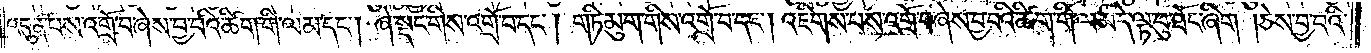འདུན་པས་འགྲོ་བ་ཞེས་བྱ་བའི་ཚིག་གི་ལམ་དང༌། ཞེ་སྡང་གིས་འགྲོ་བ་དང༌། གཏི་མུག་གིས་འགྲོ་བ་དང༌། འཇིགས་པས་འགྲོ་བ་ཞེས་བྱ་བའི་ཚིག་གི་ལམ་དེ་ལྟ་བུ་ཐོང་ཞིག །ཅེས་བྱ་བའི་
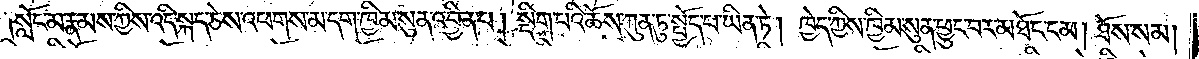སློང་མ་རྣམས་ཀྱིས་འདི་སྐད་ཅེས་འཕགས་མ་དག་ཁྱིམ་སུན་འབྱིན་པ། སྡིག་པའི་ཆོས་ཀུན་ཏུ་སྤྱོད་པ་ཡིན་ཏེ། ཁྱེད་ཀྱིས་ཁྱིམ་སུན་ཕྱུང་བར་མཐོང་ངམ། ཐོས་སམ།
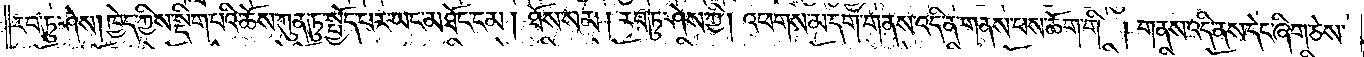རབ་ཏུ་ཤེས། ཁྱེད་ཀྱིས་སྡིག་པའི་ཆོས་ཀུན་ཏུ་སྤྱོད་པར་ཡང་མཐོང་ངམ། ཐོས་སམ། རབ་ཏུ་ཤེས་ཀྱི། འཕགས་མ་དག་གནས་འདི་ན་གནས་པས་ཆོག་གི །གནས་འདི་ནས་དེང་ཞིག་ཅེས་
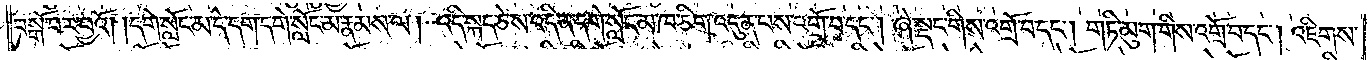བསྒོ་བར་བྱའོ། །དགེ་སློང་མ་དེ་དག་དགེ་སློང་མ་རྣམས་ལ། འདི་སྐད་ཅེས་འདི་ན་དགེ་སློང་མ་ཁ་ཅིག་འདུན་པས་འགྲོ་བ་དང༌། ཞེ་སྡང་གིས་འགྲོ་བ་དང༌། གཏི་མུག་གིས་འགྲོ་བ་དང༌། འཇིགས་
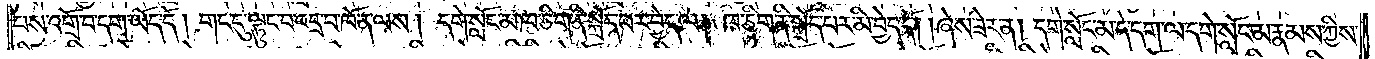པས་འགྲོ་བ་དག་ཡོད་དོ། །གང་དུ་ལྟུང་བ་འདྲ་བ་ཁོ་ན་ལས། དགེ་སློང་མ་ཁ་ཅིག་ནི་སྐྲོད་པར་བྱེད་ལ། ཁ་ཅིག་ནི་སྐྲོད་པར་མི་བྱེད་དོ། །ཞེས་ཟེར་ན། དགེ་སློང་མ་དེ་དག་ལ་དགེ་སློང་མ་རྣམས་ཀྱིས་
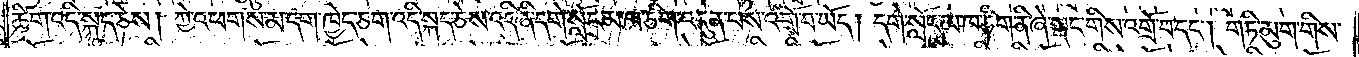ཚིག་འདི་སྐད་ཅེས། ཀྱེ་འཕགས་མ་དག་ཁྱེད་ཅག་འདི་སྐད་ཅེས་འདི་ནི་དགེ་སློང་མ་ཁ་ཅིག་འདུན་པས་འགྲོ་བ་ཡོད། དགེ་སློང་མ་ཁ་ཅིག་ནི་ཞེ་སྡང་གིས་འགྲོ་བ་དང༌། གཏི་མུག་གིས་
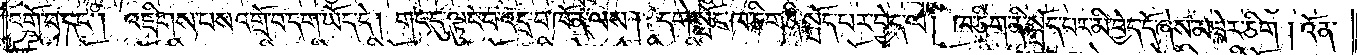འགྲོ་བ་དང༌། འཇིགས་པས་འགྲོ་བ་དག་ཡོད་དེ། གང་དུ་ལྟུང་བ་འདྲ་བ་ཁོ་ན་ལས། དགེ་སློང་ཁ་ཅིག་ནི་སྐྲོད་པར་བྱེད་ལ། ཁ་ཅིག་ནི་སྐྲོད་པར་མི་བྱེད་དོ་ཞེས་མ་ཟེར་ཅིག །འོན་
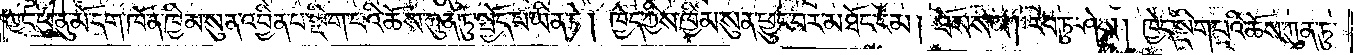ཀྱང་ཕུ་ནུ་མོ་དག་ཁོ་ན་ཁྱིམ་སུན་འབྱིན་པ་སྡིག་པའི་ཆོས་ཀུན་ཏུ་སྤྱོད་པ་ཡིན་ཏེ། ཁྱེད་ཀྱིས་ཁྱིམ་སུན་ཕྱུང་བར་མཐོང་ངམ། ཐོས་སམ། རབ་ཏུ་ཤེས། ཁྱེད་སྡིག་པའི་ཆོས་ཀུན་ཏུ་
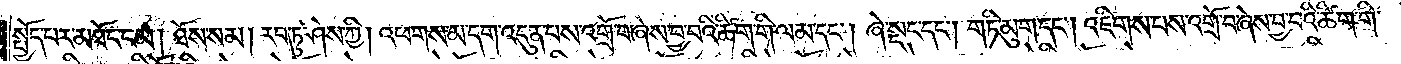སྤྱོད་པར་མཐོང་ངམ། ཐོས་སམ། རབ་ཏུ་ཤེས་ཀྱི། འཕགས་མ་དག་འདུན་པས་འགྲོ་བ་ཞེས་བྱ་བའི་ཚིག་གི་ལམ་དང༌། ཞེ་སྡང་དང༌། གཏི་མུག་དང༌། འཇིགས་པས་འགྲོ་བ་ཞེས་བྱ་བའི་ཚིག་གི་
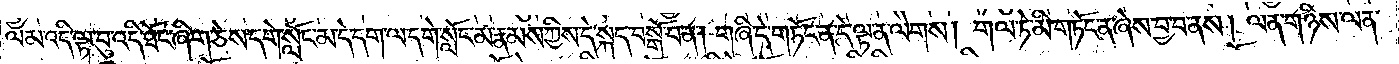ལམ་འདི་ལྟ་བུ་འདི་ཐོང་ཞིག་ཅེས་དགེ་སློང་མ་དེ་དག་ལ་དགེ་སློང་མ་རྣམས་ཀྱིས་དེ་སྐད་བསྒོ་བ་ན། གཞི་དེ་གཏོང་ན་དེ་ལྟ་ན་ལེགས། གལ་ཏེ་མི་གཏོང་ན་ཞེས་བྱ་བ་ནས། ལན་གཉིས་ལན་
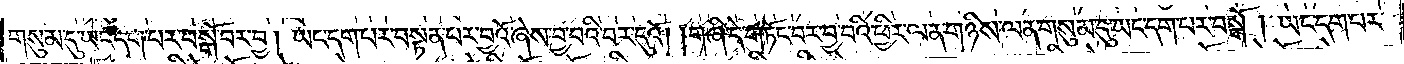གསུམ་དུ་ཡང་དག་པར་བསྒོ་བར་བྱ། ཡང་དག་པར་བསྟན་པར་བྱའོ་ཞེས་བྱ་བའི་བར་དུའོ། །གཞི་དེ་གཏོང་བར་བྱ་བའི་ཕྱིར་ལན་གཉིས་ལན་གསུམ་དུ་ཡང་དག་པར་བསྒོ། ཡང་དག་པར་
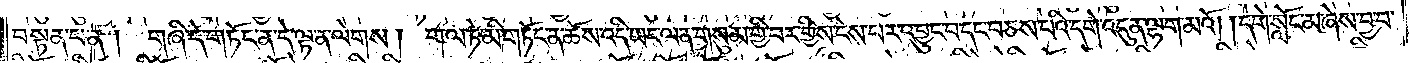བསྟན་པ་ན། གཞི་དེ་གཏོང་ན་དེ་ལྟ་ན་ལེགས། གལ་ཏེ་མི་གཏོང་ན་ཆོས་འདི་ཡང་ལན་གསུམ་གྱི་བར་གྱིས་ངེས་པར་འབྱུང་བ་དང་བཅས་པའི་དགེ་འདུན་ལྷག་མའོ། །དགེ་སློང་མ་ཞེས་བྱ་བ་
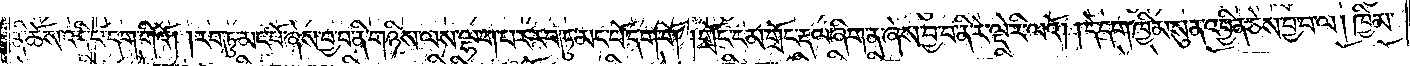ནི་ཆོས་འདི་པ་དག་གིའོ། །རབ་ཏུ་མང་པོ་ཞེས་བྱ་བ་ནི་གཉིས་ལས་ལྷག་པར་རབ་ཏུ་མང་པོ་དག་གོ །གྲོང་ངམ་གྲོང་རྡལ་ཞིག་ན་ཞེས་བྱ་བ་ནི་རེ་ལྡེ་རི་ལའོ། །དེ་དག་ཁྱིམ་སུན་འབྱིན་ཅེས་བྱ་བ་ལ། ཁྱིམ་
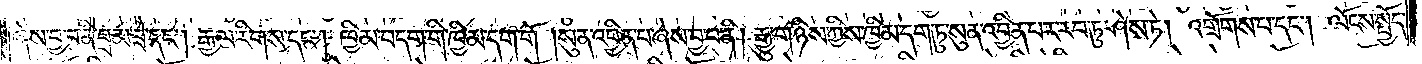ཞེས་བྱ་བ་ནི་བྲམ་ཟེ་དང༌། རྒྱལ་རིགས་དང༌། ཁྱིམ་བདག་གི་ཁྱིམ་དག་གོ །སུན་འབྱིན་པ་ཞེས་བྱ་བ་ནི། རྒྱུ་གཉིས་ཀྱིས་ཁྱིམ་དག་ཏུ་སུན་འབྱིན་པར་རབ་ཏུ་ཤེས་ཏེ། འགྲོགས་པ་དང༌། ལོངས་སྤྱོད་
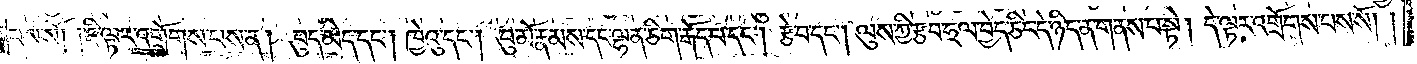པས་སོ། །ཇི་ལྟར་འགྲོགས་པས་ན། བུད་མེད་དང༌། ཁྱེའུ་དང༌། བུ་མོ་རྣམས་དང་ལྷན་ཅིག་རྒོད་པ་དང༌། རྩེ་བ་དང༌། ལུས་ཀྱི་རྩབ་ཧྲལ་བྱེད་ཅིང་དེ་ཉིད་ན་གནས་པ་སྟེ། དེ་ལྟར་འགྲོགས་པས་སོ། །
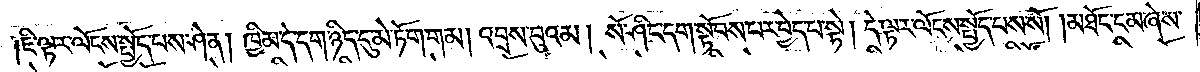ཇི་ལྟར་ལོངས་སྤྱོད་པས་ཤེ་ན། ཁྱིམ་དེ་དག་ཉིད་དུ་མེ་ཏོག་གམ། འབྲས་བུའམ། སོ་ཤིང་དག་སྟོབས་པར་བྱེད་པ་སྟེ། དེ་ལྟར་ལོངས་སྤྱོད་པས་སོ། །མཐོང་ངམ་ཞེས་
